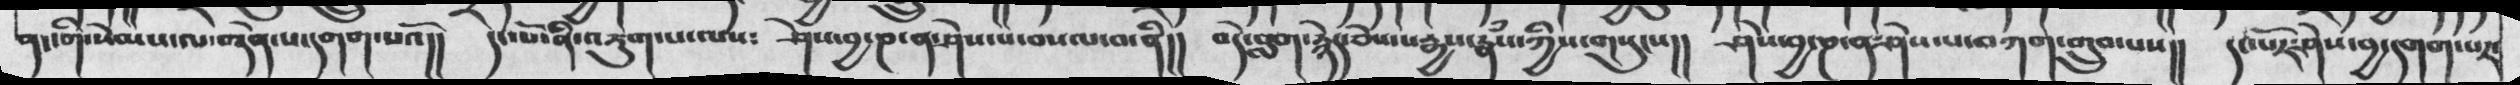ནང་གི་སེམས་ལ་བདེན་པ་དགག་པའོ།།  དང་པོ་ནི་འཇུག་པ་ལས༴  ཤེས་བྱ་ཎ་ན་ཤེས་པ་བསལ་བ་ནི།།   བདེ་བླག་རྙེད་ཅེས་སརྒྱས་རྣཾས་ཀྱི་གསུངས།།  ཤེས་བྱ་ཎ་ན་ཤེས་པ་བཀག་གྲུབ་པས།།  དང་པོར་ཤེས་བྱས་དགག་པར་
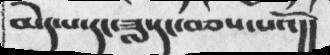མེད་པ་དང་ཟླ་དང་བཅས་པའོ།།
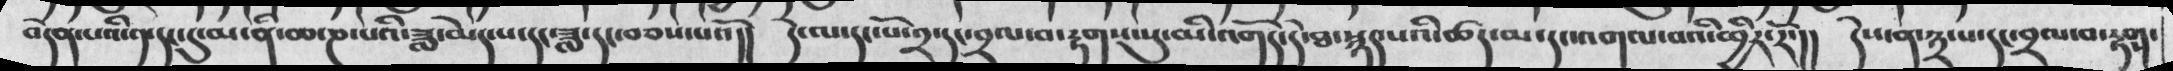བདེན་པའི་༡་དང་དུ་མ་ནི་ཆ་ཎ་པའི་ཟླ་མེད་པ་དང་ཟླ་དང་བཅས་པའོ།།   དེ་ལ་དང་པོ་༢་དང་བྲལ་བ་རྟགས་སུ་མི་འགོད་དེ་ཐ་སྙད་པའི་ཚད་མ་དང་འགལ་བའི་ཕྱིར་རོ་།།   དེས་ན་༣་པ་དང་བྲལ་བ་རྟགས་
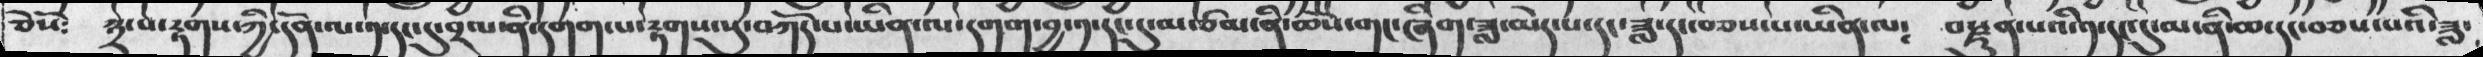ཅེསོ༴  ༣་པ་རྟགས་ཀྱི་དོན་ལ་༡་དང་དུ་བྲལ་ནི་དགག་པ་རྟགས་སུ་བཀོད་པ་ཡིན་ལ་དགག་བྱ་༡་དང་དུ་མ་ཙམ་ནི་ཆོས་གང་ཞིག་ཟླ་མེད་པ་དང་ཟླ་དང་བཅས་ཡིན་ལ༴  བརྫུན་པའི་༡་དང་དུ་མ་ནི་ཆ་དང་བཅས་པའི་ཟླ་
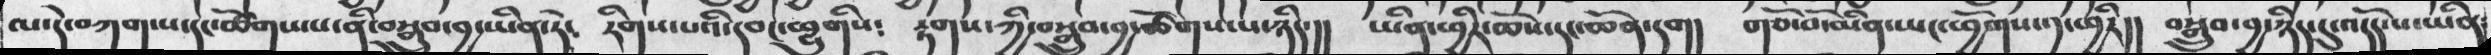ལ་དེ་བཀག་པ་དང་ཚོགས་པ་ནི་བསྒྲུབ་བྱ་ཡིན་ཏེ༴  རིགས་པའི་དབང་ཕྱུགིས༴  རྟགས་ཀྱི་བསྒྲུབ་བྱ་ཚོགས་པ་ཉིད་།།  ཡིན་ཕྱིར་ཆོས་དང་ཆོན་དག།།  གཙོ་བོ་མིན་ཡང་ཕྱོགས་༡་ཕྱིར།།  བསྒྲུབ་བྱ་ཉིད་དུ་འདོད་པ་ཡིན
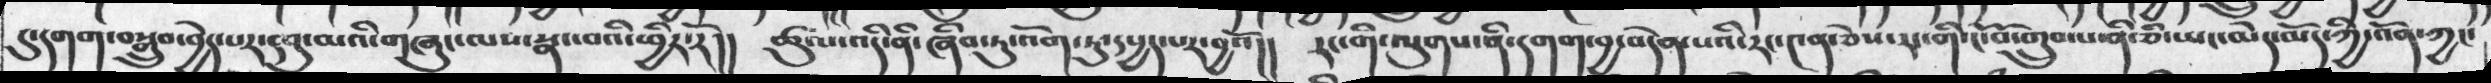དུ་དགག་བསྒྲུབ་བྱེད་པར་དབུ་མའི་གཞུང་ལས་སྣང་བའི་ཕྱིར་རོ།།  ཚུལ་འདི་ནི་ཞིབ་ཏུ་འོད་ཏུ་དཔྱད་པར་ནྱའོ།།  རང་གི་ལུགས་ནི་དགག་བྱ་བདེན་པའི་རང་༤ན་ཅེས་རང་གི་ངོ་བོ་གྲུབ་པ་ནི་ཅི་ཡང་མེད་མོད་ཀྱི་འོད་ཀྱང་
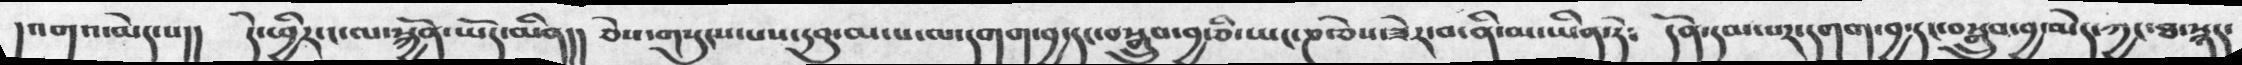།འགའ་མེད་པ།།  དེ་ཕྱིར་ང་ལ་སྐྱོན་ཡོན་མིན།  ཅེས་གསུངས་པས་དབུ་མ་པ་ལ་དགག་བྱ་དང་བསྒྲུབ་བྱ་ཅི་ཡང་ཎ་ཅེས་ཟེར་བ་ནི་མ་ཡིན་ཏེ༴  དོན་དམ་པར་དགག་བྱ་དང་བསྒྲུབ་བྱ་མེད་ཀྱང་ཐ་སྙད་
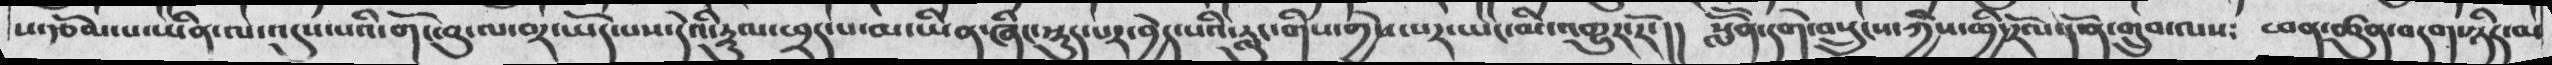ས་རྩོན་པ་ཡིན་ལ་འདུལ་པའི་གོང་བུ་ལ་བར་ཡོད་པས་དེའི་སྡུལ་ཕྲད་པ་མ་ཡིན་ཞིང་སྡུད་པར་བྱེད་པའི་རླུང་གིས་གྱེས་པར་ཡང་མི་འགྱུར་རོ་།།  སློོན་དགེ་བསླུངས་ཀྱིས་ཕྱི་རོལ་དོན་གྲུབ་ལས༴  ཕན་ཚུན་བདག་ཉིད་མ
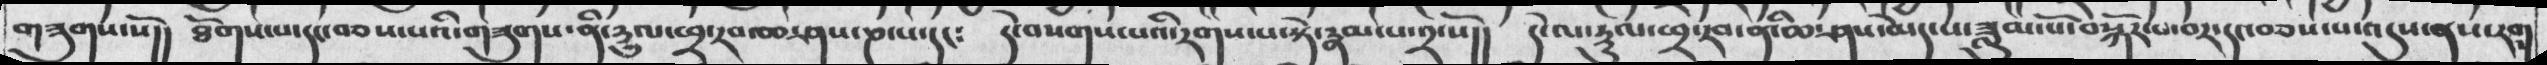གཟུགས་སོ།།  ཐོགས་པ་དང་བཅས་པའི་གཟུགས་ནི་སྡུལ་ཕྲ་རབ་ཆ་ཤས་ཎ་པ་དང༴  དེ་བསགས་པའི་རགས་པ་སྟེ་རྣམ་པ་༢་སོ།།  དེ་ལ་སྡུལ་ཕྲ་རབ་ནི་ཆ་ཤས་མེད་པ་ཟླུམ་པོ་བསྐོར་བར་དང་བཅས་པ་འདུས་ནས་རག
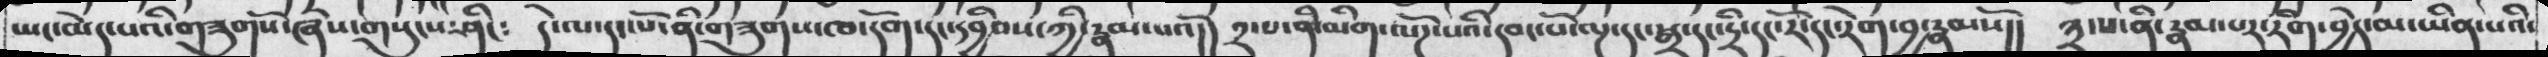ཡང་མེད་པའི་གཟུགསོ་ཞེས་གསུངས་ཤིང༴  དེ་ལ་དང་པོ་ནི་གཟུགས་ཁ་དོག་དང་དབྱིབས་ཀྱི་རྣམ་པའོ།།  ༢་པ་ནི་མིག་ལོཌ་པའི་དབང་པོ་ལྔ་དང་སྒྲ་དང་དྲི་དང་རོ་དང་རེག་བྱ་རྣམསོ།།  ༣་པ་ནི་རྣམ་པར་རིག་བྱེད་མ་ཡིན་པའི་
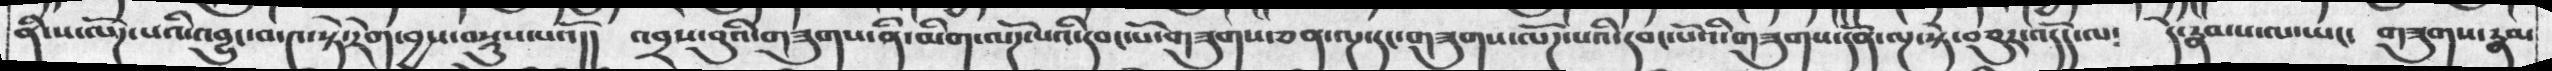ནི་པ་ལོཌ་པའི་འབྱུང་བ་༤་སྟེ་རེག་བྱས་བསྡུས་པའོ།།  འབྲས་བུའི་གཟུགས་ནི་མིག་ལོཌ་པའི་དབང་པོ་གཟུགས་ཅན་ལྔ་དང་གཟུགས་ལོཌ་པའི་དབང་པོའི་གཟུགས་དོན་ལྔ་སྟེ་བཅུར་འདོད་ལ༴  དེ་རྣམས་ལ་ཡང་  གཟུགས་རྣམ
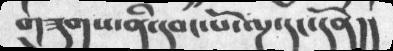གཟུགས་ནི་དབང་པོ་ལྔ་དང་དོན།།
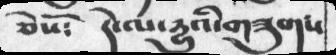ཅེསོ༴  དེ་ལ་དྱུའི་གཟུགས
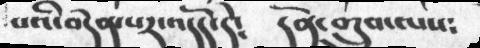པའི་བདེན་པར་འདོད་དེ༴  དོན་གྲུབ་ལས༴
